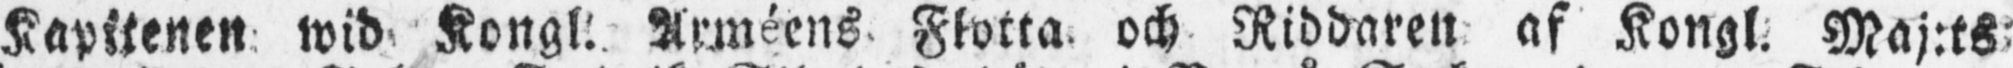Kapitenen wid Kongl. Arméens Flotta och Riddaren af Kongl. Maj:ts
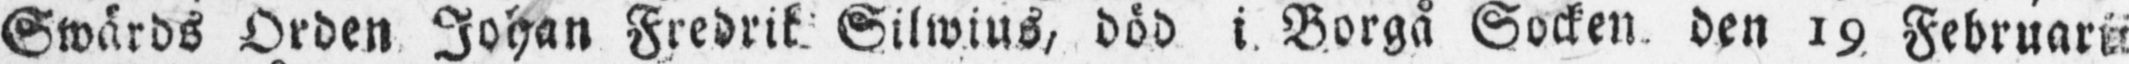Swärds Orden Johan Fredrik Silwius, död i Borgå Socken den 19 Februarii
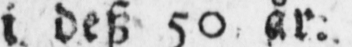i. desz 50 år.
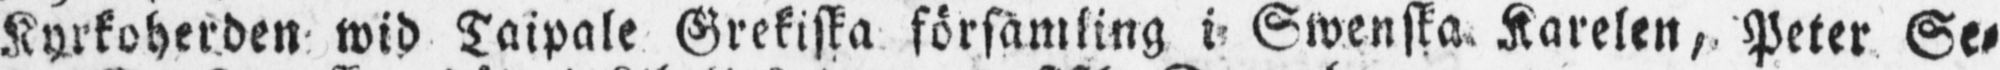Kyrkoherden wid Taipale Grekiska församling i Swenska Karelen, Peter Se-
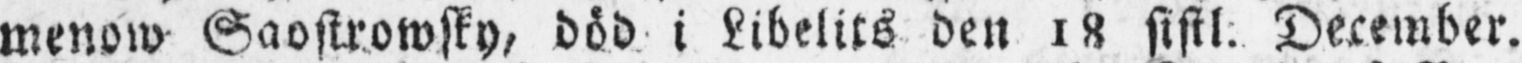menow Saostrowsky, död i Libelits den 18 sistl. December.
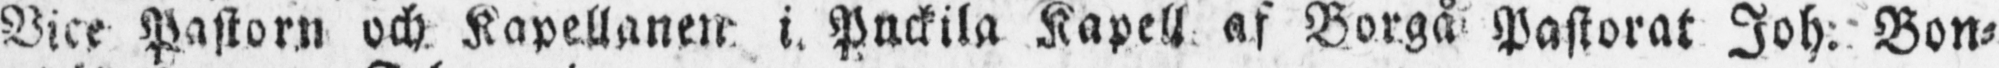Vice Pastorn och Kapellanen i Puckila Kapell af Borgå Pastorat Joh. Bon-
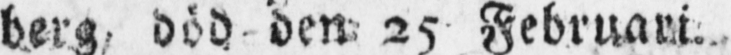berg, död den 25 Februari.
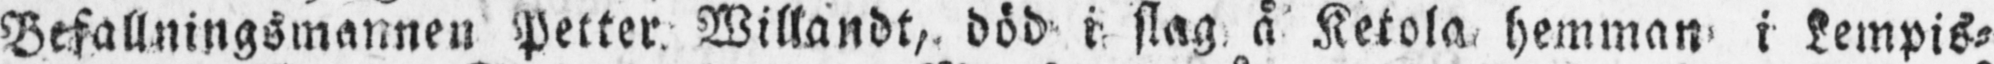Befallningsmannen Petter Willandt, död i slag å Ketola hemman i Lempis-
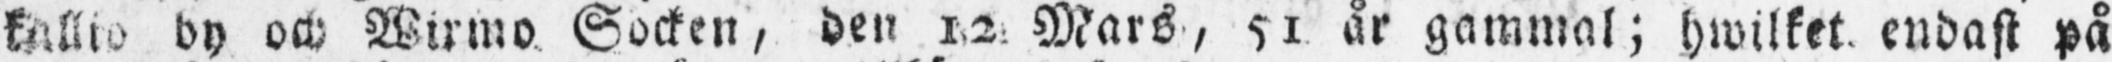kallio by och Wirmo Socken, den 12 Mars, 51 år gammal; hwilket, endast på
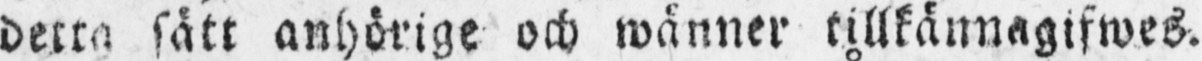detta sätt anhörige och wänner tillkännagifwes.
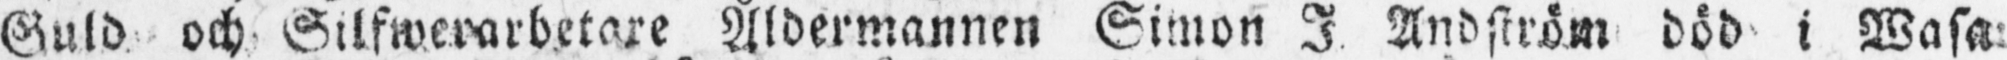Guld och Silfwerarbetare Åldermannen Simon I Andström död i Wasa
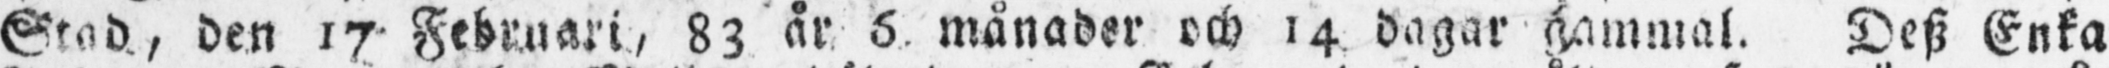Stad, den 17 Februari, 83 år 6 månader och 14 dagar gammal. Desz Enka
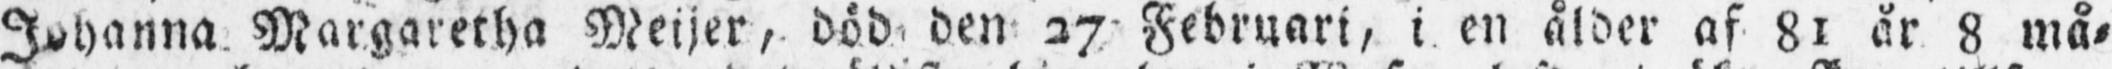Johanna Margaretha Meijer, död den 27 Februari, i en ålder af 81 år 8 må-
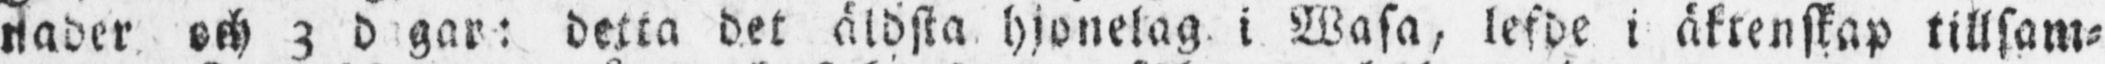nader och 3 dagar: detta det äldsta hjonelag i Wasa, lefde i äktenskap tillsam-
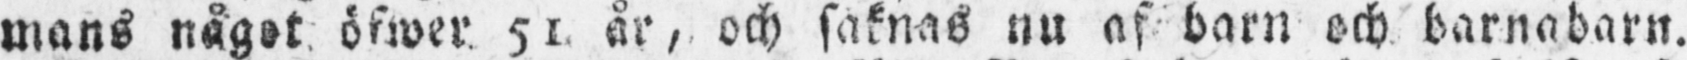mans något öfwer 51 år, och saknas nu af barn och barnabarn.
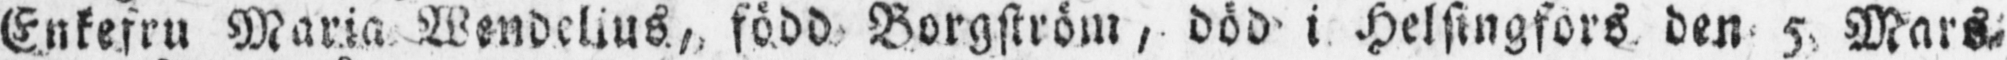Enkefru Maria Wendelius, född Borgström, död i Helsingfors den 5 Mars
